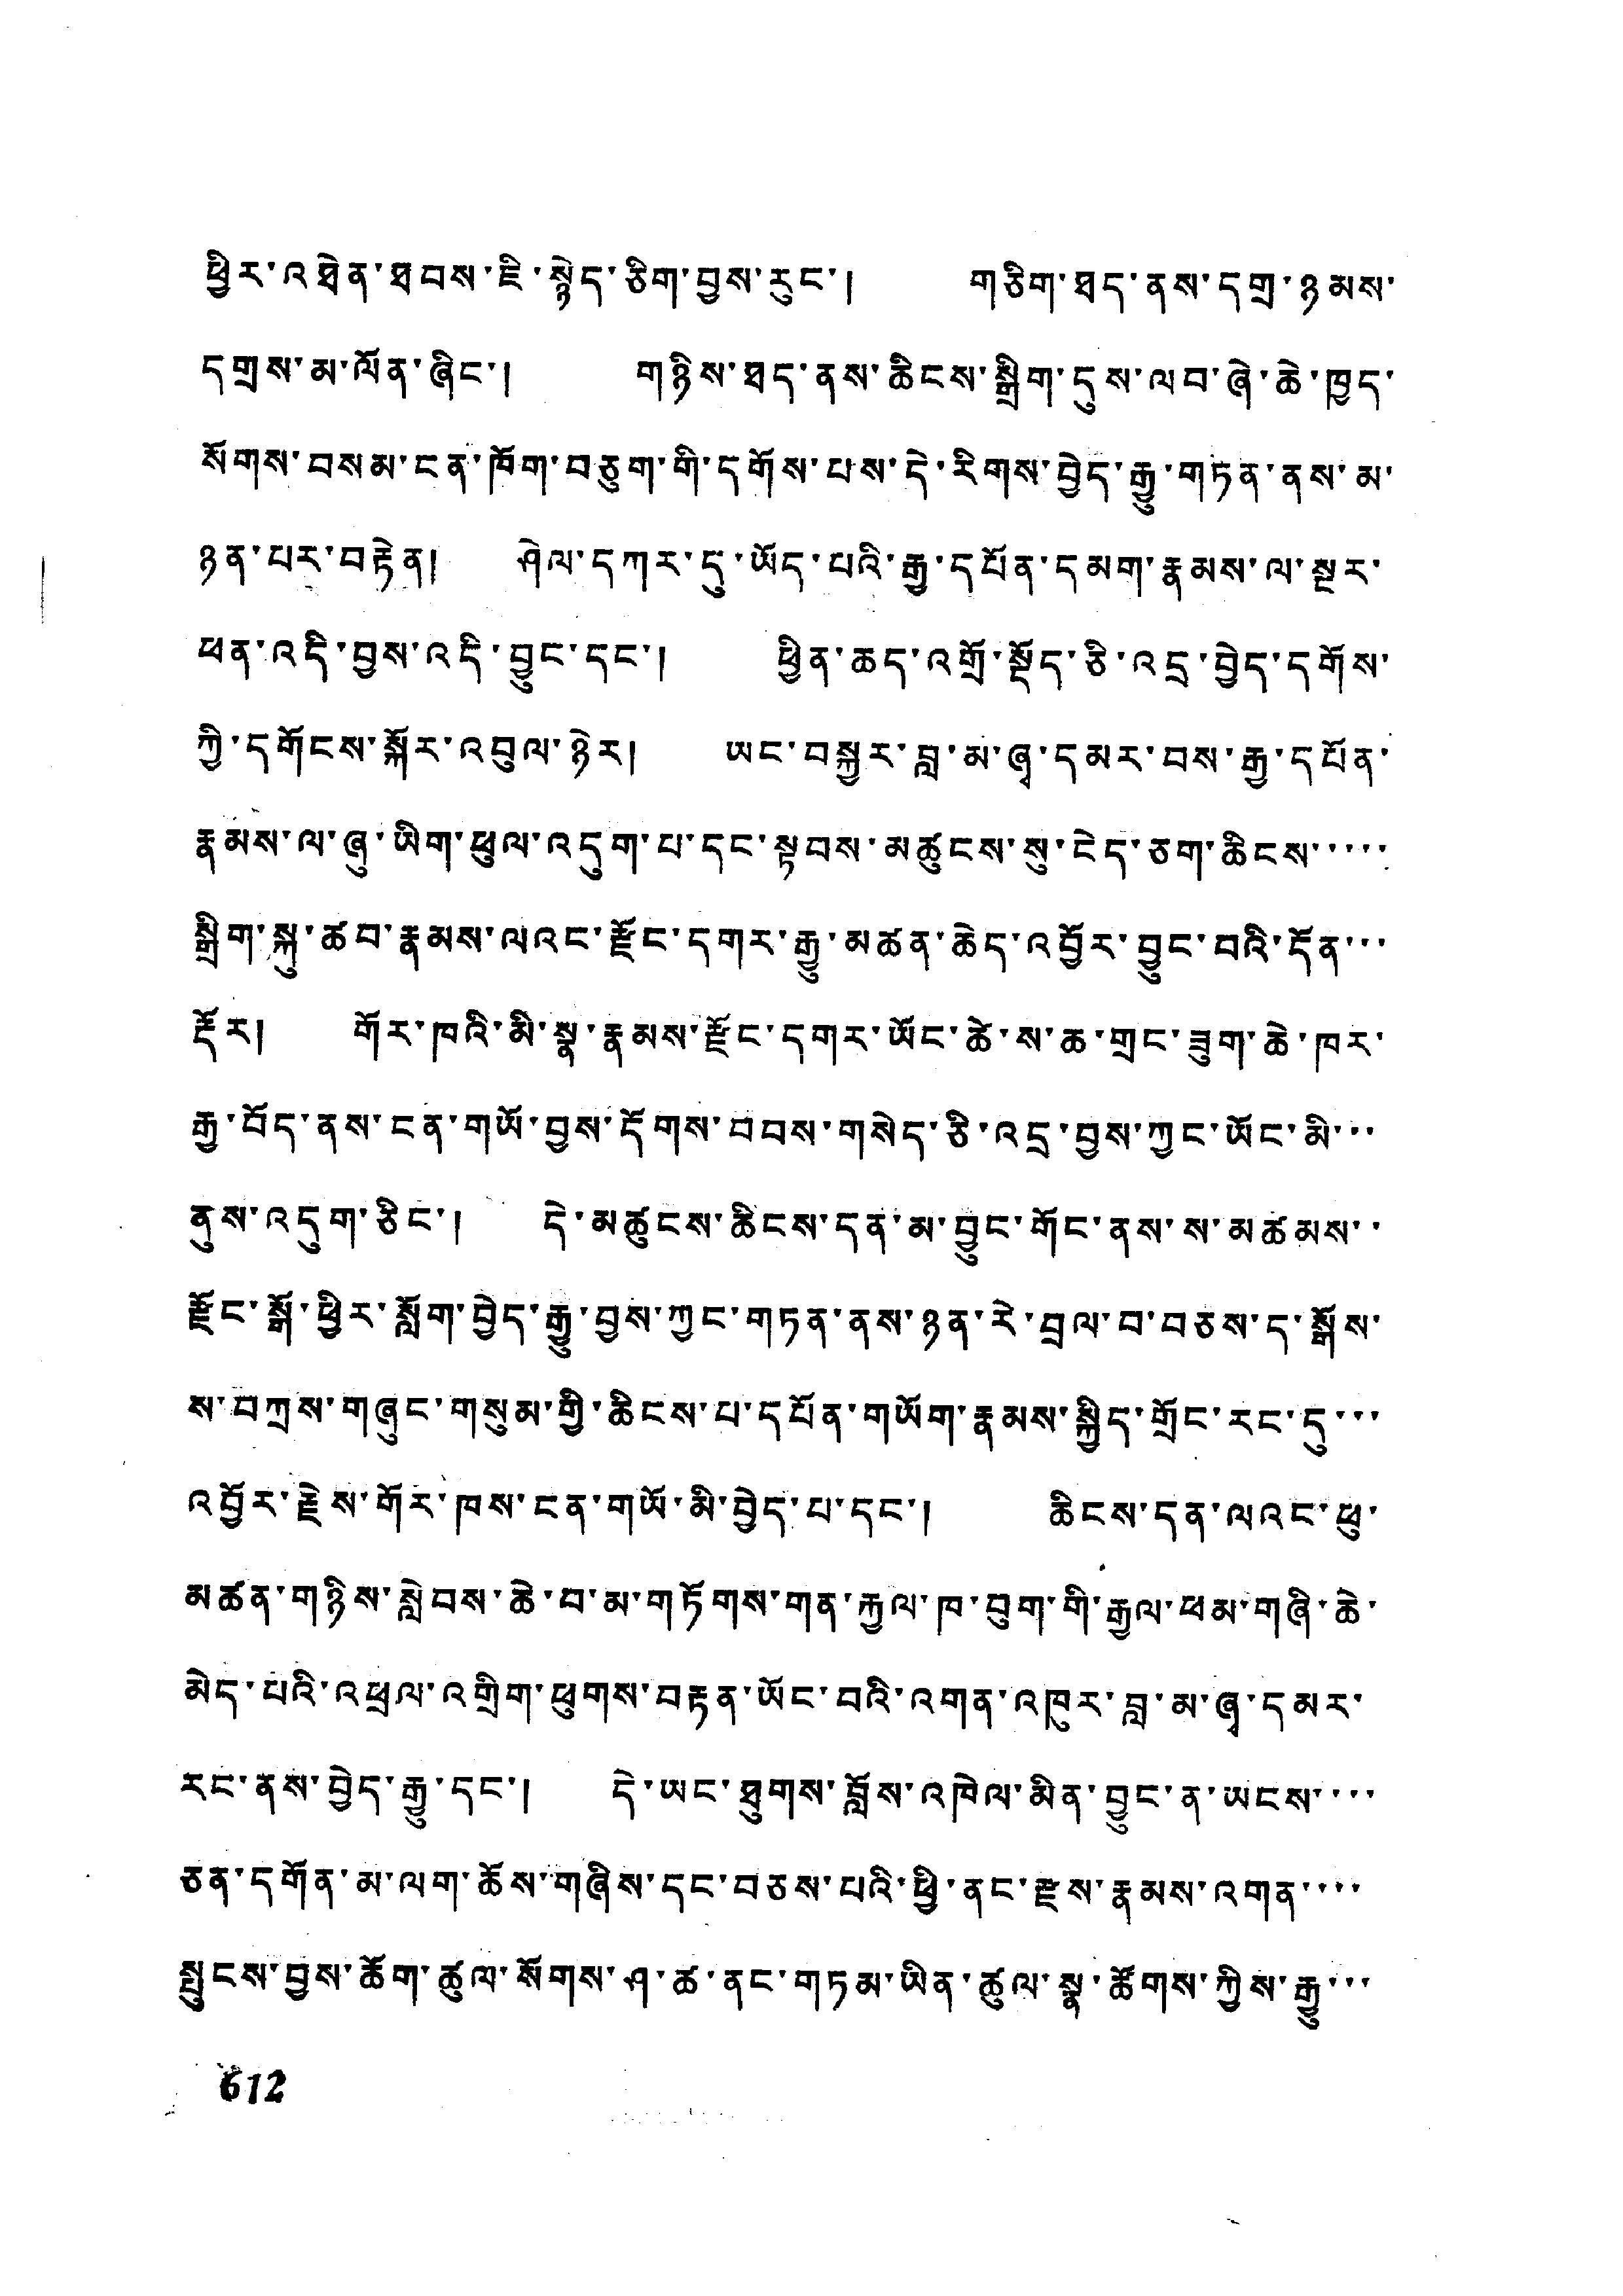ཕྱིར་འཐེན་ཐབས་ཇི་སྙེད་ཅིག་བྱས་རུང་། གཅིག་ཐད་ནས་དགྲ་ཉམས་
དགྲས་མ་ལོན་ཞིང་། གཉིས་ཐད་ནས་ཆིངས་སྒྲིག་དུས་ལབ་ཞེ་ཆེ་ཁྱད་
སོགས་བསམ་ངན་ཁོག་བཅུག་གི་དགོས་པས་དེ་རིགས་བྱེད་རྒྱུ་གཏན་ནས་མ་
ཉན་པར་བརྟེན། ཤེལ་དཀར་དུ་ཡོད་པའི་རྒྱ་དཔོན་དམག་རྣམས་ལ་སྔར་
ཕན་འདི་བྱས་འདི་བྱུང་དང་། ཕྱིན་ཆད་འགྲོ་སྡོད་ཅི་འདྲ་བྱེད་དགོས་
ཀྱི་དགོངས་སྐོར་འབུལ་ཉེར། ཡང་བསྐྱར་བླ་མ་ཞྭ་དམར་བས་རྒྱ་དཔོན་
རྣམས་ལ་ཞུ་ཡིག་ཕུལ་འདུག་པ་དང་སྟབས་མཚུངས་སུ་ངེད་ཅག་ཆིངས་་་་་
སྒྲིག་སྐུ་ཚབ་རྣམས་ལའང་རྫོང་དགར་རྒྱུ་མཚན་ཆེད་འབྱོར་བྱུང་བའི་དོན་་་
རྡོར། གོར་ཁའི་མི་སྣ་རྣམས་རྫོང་དགར་ཡོང་ཚེ་ས་ཆ་གྲང་ཟུག་ཆེ་ཁར་
རྒྱ་བོད་ནས་ངན་གཡོ་བྱས་དོགས་བབས་གསེད་ཅི་འདྲ་བྱས་ཀྱང་ཡོང་མི་་་
ནུས་གདུག་ཅིང་། དེ་མཚུངས་ཆིངས་དན་མ་བྱུང་གོང་ནས་ས་མཚམས་་
རྫོང་སྒོ་ཕྱིར་སློག་བྱེད་རྒྱུ་བྱས་ཀྱང་གཏན་ནས་ཉན་རེ་བྲལ་བ་བཅས་ད་སྒོས་
ས་བཀྲས་གཞུང་གསུམ་གྱི་ཆིངས་པ་དཔོན་གཡོག་རྣམས་སྐྱིད་གྲོང་རང་དུ་་་
འབྱོར་རྗེས་གོར་ཁས་ངན་གཡོ་མི་བྱེད་པ་དང་། ཆིངས་དན་ལའང་ཕུ་
མཚན་གཉིས་སླེབས་ཆེ་བ་མ་གཏོགས་གན་རྐྱལ་བུག་གི་རྒྱལ་ཕམ་གཞི་ཆེ་
མེད་པའི་འཕྲལ་འགྲིག་ཕུགས་བརྟན་ཡོང་བའི་འགན་འཁུར་བླ་མ་ཞྭ་དམར་
རང་ནས་བྱེད་རྒྱུ་དང་། དེ་ཡང་ཐུགས་བློས་འཁེལ་མིན་བྱུང་ན་ཡངས་་་་
ཅན་དགོན་མ་ལག་ཆོས་གཞིས་དང་བཅས་པའི་ཕྱི་ནང་རྫས་རྣམས་འགན་་་་
སྤུངས་བྱས་ཆོག་ཚུལ་སོགས་ཤ་ཚ་ནང་གཏམ་ཡིན་ཚུལ་སྣ་ཚོགས་ཀྱིས་རྒྱུ་་་
612
